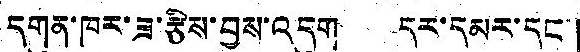དགུན་ཁར་ཟ་རྩིས་བྱས་འདུག དར་དམར་དང་།
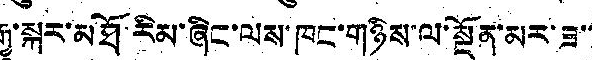རྒྱུ་སྐར་མཐོ་རིམ་ཞིང་ལས་ཁང་གཉིས་ལ་སྔོན་མར་ཟ་་
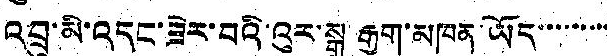འབྲུ་མི་འདང་ཟེར་བའི་འུར་སྒྲ རྒྱག་མཁན་ཡོད་་་་་་་་་
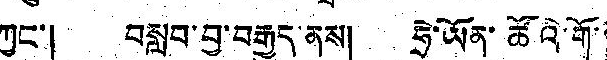ཀྱང་། བསླབ་བྱ་བརྒྱུད་ནས། ཧྲེ་ཡོན་ཚོའི་གོ་
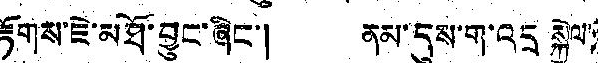རྟོགས་ཇེ་མཐོ་བྱུང་ཞིང་། ནམ་དུས་ག་འདྲ་སྐྱེལ་་
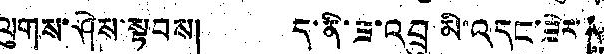ལུགས་ཤེས་སྟབས། ད་ནི་ཟ་འབྲུ་མི་འདང་ཟེར་་
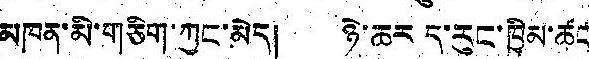མཁན་མི་གཅིག་ཀྱང་མེད། ཉེ་ཆར ད་རུང་ཁྱིམ་ཚང
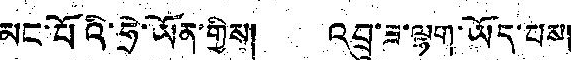མང་པོའི་ཧྲེ་ཡོན་གྱིས། འབྲུ་ཟ་ལྷག་ཡོད་པས།
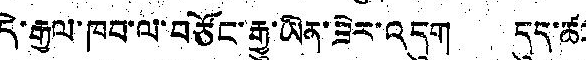དེ་རྒྱལ་ཁབ་ལ་བཙོང་རྒྱུ་ཡིན་ཟེར་འདུག དུད་ཚང་
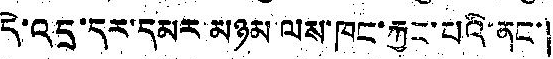དེ་འདྲ་དར་དམར་མཉམ་ལས་ཁང་རྐྱང་པའི་ནང་།
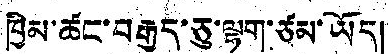ཁྱིམ་ཚང་བརྒྱད་ཅུ་ལྷག་ཙམ་ཡོད།
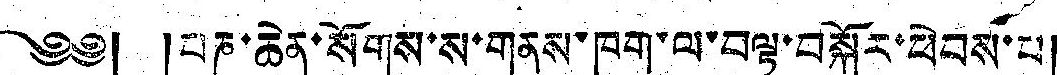༄༅། །པཎ་ཆེན་སོགས་ས་གནས་ཁག་ལ་བལྟ་བསྐོར་ཕེབས་པ།
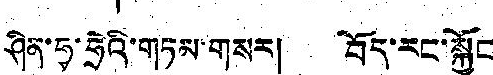ཤིན་ཧྭ་ཧྲེའི་གཏམ་གསར། བོད་རང་སྐྱོང
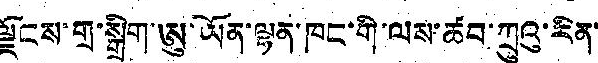ལྗོངས་གྲ་སྒྲིག་ཨུ་ཡོན་ལྷན་ཁང་གི་ལས་ཚབ་ཀྲུའུ་རིན་
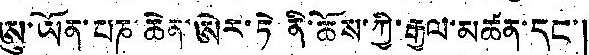ཨུ་ཡོན་པཎ་ཆེན་ཨེར་ཏེ ནི་ཆོས་ཀྱི་རྒྱལ་མཚན་དང་།
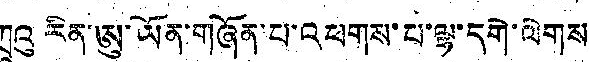ཀྲུའུ རིན་ཨུ་ཡོན་གཞོན་པ་འཕགས་པ་ལྷ་དགེ་ལེགས་
